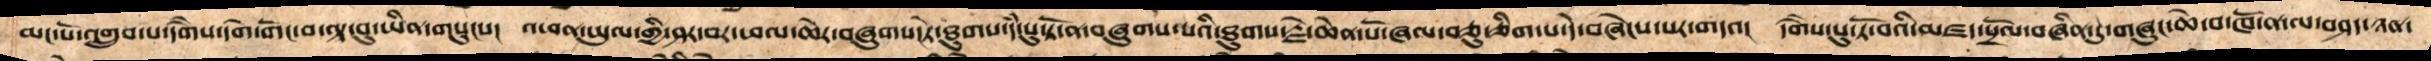མང་པོ་འགྲུབ་པ་དགཻས་དགེ་གོང་པ་ལྟ་བུ་ཡིན་གསུངས།  འཕན་ཡུལ་གྱི་ཤར་བར་ཕལ་ཆེར་བཞུགས་ཏེ་ཐུགས་དཾ་པུ་ཏོ་ན་བཞུགས་པའི་ཐུགས་རྗེ་ཆེན་པོ་ཞལ་བཅུ་ཅིག་པ་དེ་བཞེངས་པར་གདའ།  དགཻས་པུ་ཏོ་བའི་མཛད་སྲོལ་བཞིན་དུ་གཞུང་ཆེ་བ་ཁོ་ན་ལ་བཤད་ཉན་
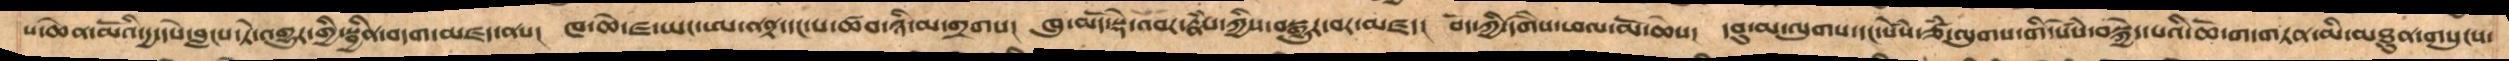པ་ཆེན་མོའི་དྱ་དཔེ་བླངས་ཏེ་འགྱུར་གྱི་སྦྱིན་བདག་མཛད་ནས།  ཁ་ཆེ་ཛ་ཡ་ཨ་ནནྟ་དང་པ་ཚབ་ཉི་མ་གྲགས།  ཁུ་མདོ་སྡེ་འབར་རྣཾས་ཀྱིས་བསྒྱུར་བར་མཛད།  བོད་ཀྱི་དགཻས་ཕལ་མོ་ཆེས།  དབུ་མ་ལུགས་དང་སེཾས་ཙཾ་ལུགས་གི་སེཾས་བསྐྱེད་པའི་ཆོ་ག་དག་གཏན་མི་མཐུན་གསུངས་
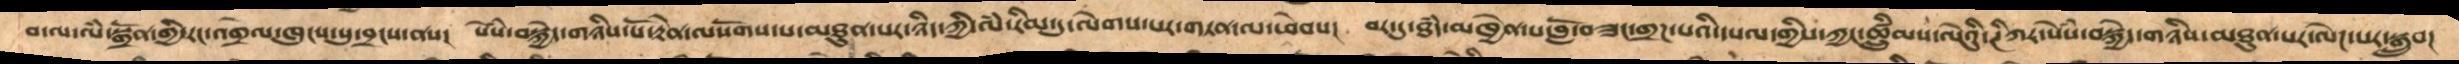བ་ལ་ལཾ་སྒྲོན་གྱི་རང་འགྲེལ་ཁུངས་སུ་བྲངས་ནས།  སེསཾ་བསྐྱེད་གཉིས་པོ་རྟེན་ལསོགས་པ་མཐུན་པར་ཉིད་ཀྱི་ལཾ་རིམ་དུ་ལེགས་པར་གཏན་ལ་ཕེབས།  བར་དུ་ཐཾད་མཁྱེན་པ་བློ་བཟང་གྲཌ་པའི་དཔལ་གྱིས་ཀྱང་ཚྲིུམས་ལེའིུ་ཊིཀར་སེསཾ་བསྐྱེད་གཉིས་མཐུན་པར་ལེཌ་པར་སྒྲུབ།
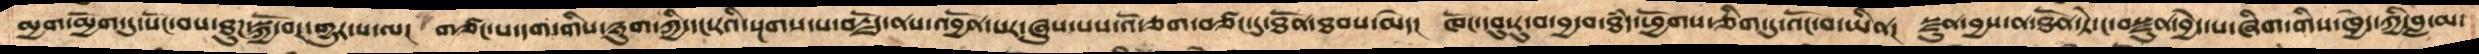མྱག་མྱོག་དུ་སོང་བས་ཐུཌ་སྐྱོ་བར་གྱུར་པ་ལ།  གཙང་པ་དག་གིས་ཉུག་ཀྱི་དང་རའི་སྔགས་པ་བརྗོད་ནས་འབྱོན་པར་ཞུས་པས་འོ་ཅག་བཙང་དུ་ཐོན་ཐབས་མེད།  ཁོང་དབུ་རུ་བ་བྱ་བ་ཐཾད་ཕྱོགས་ཅིག་ཏུ་འོང་བཡིན།  སྫུན་བྱས་ན་ཐོན་ཏེ་ང་བསྫུན་བྱེད་པ་ཞིག་གིས་ཁྱེད་ཀྱི་བླ་མ་
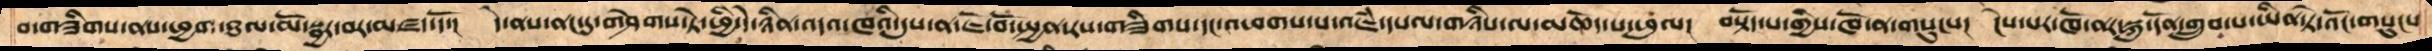བ་གཟིགས་ནས་ཕྱག་ཐལ་མོ་སྦྱར་བར་མཛད་དོ། དེ་ནས་ནང་དུ་གཤེགས་ཏེ་ཕྱི་དེ་ཉིན་འདའ་ཁའི་དུས་ན་ཇོ་བོ་སྤྱན་རས་གཟིགས་དང་འཕགས་པ་འཇཾ་དཔལ་གཉིས་ལ་མཆོད་པ་ཕུལ།  བསྟོད་པ་གྱིས་ཁོ་ན་གསུངས།  ངེས་པ་ཁོ་ནར་སྐུ་དོན་གྲུབ་པ་ཡིན་ཏེ་འོང་གསུངས
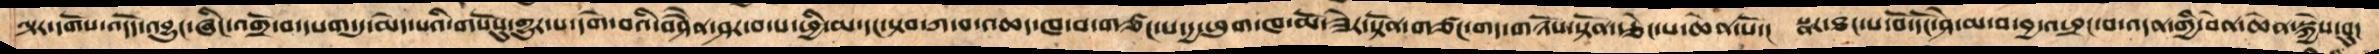ལྟར་དགོས་འདོད་འབྱུང་ཞིང་འགྲོ་བ་དཔག་དུ་མེད་པའི་གསོསུ་གྱུར་པ་དགེ་བའི་བཤཻན་ཤར་བ་པ་ཕྱི་མ་དང་སྟབ་ཀ་བ་འཆད་ཁ་བ་གཙང་པ་དྱ་ཕུག་ཁ་མོ་ཟེར་སྟོན་གཙང་གད་གཉོས་སྟོན་རྩེང་པ་ཆེན་པོ། སྣར་ཐང་པ་བོ་དོང་ཤེ་མ་བ་བྱ་འཕྲང་བ་འདན་གྱི་བེན་ཆེན་སྐྱེས་བུ།
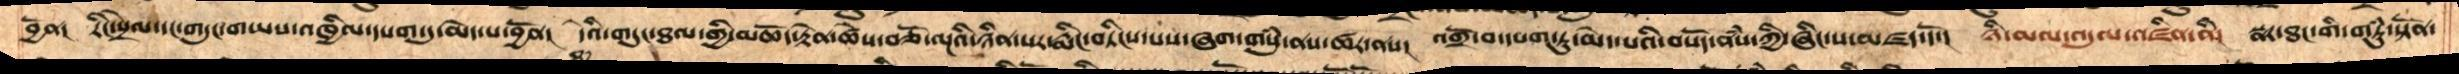བྱོན། རིང་སྲེལ་དང་གདུང་གཡས་འཁྱིལ་དཔག་དུ་མེད་པ་བྱོན། དེའི་གདུང་ཐལ་གྱི་མཆོད་རྟེན་ཚེས་བཅོ་ལྔའི་ཉིན་པར་རྨིང་བཏིངས་པས་ཞག་གསུཾ་ནས་ཚར་ནས།  འགྲོ་བ་དཔག་ཏུ་མེད་པའི་བསོད་ནཾས་ཀྱི་ཞིང་ས་མཛད་དོ།  ཉི་མལ་འདུལ་འཛིན་ནི། སྣར་ཐང་གི་གཏུཾ་སྟོན་
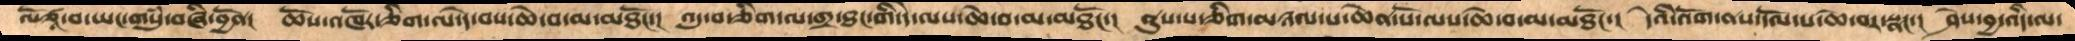ལོཙཱ་བ་ཡང་གསུཾ་བཞི་བྱོན། ཆོས་འཁོར་ཅིག་ལ་དེ་བས་ཆེ་བ་མ་མཐོང་། འདུ་བ་ཅིག་ལ་གྲ་ཐང་གི་དེ་ལས་ཆེ་བ་མ་མཐོང་། ནུས་པ་ཅིག་མཉལ་པ་ཆེན་པོ་ལས་ཆེ་བ་མ་མཐོང་། དེའི་འོག་ན་དོལ་པ་ཆེ་བར་སྣང་། ཤེས་བྱ་འདི་ལ་
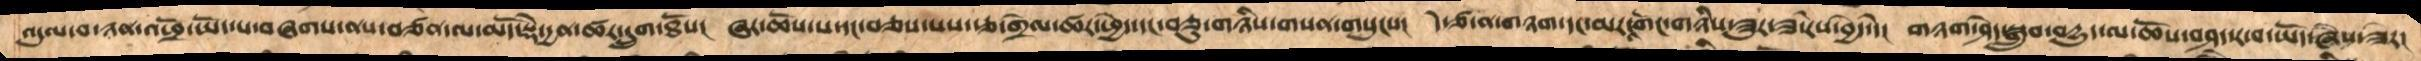འདུལ་བ་ཉན་འཕྲོ་ཡོད་པ་བཞགས་ནས་བཙན་ལ་མདོ་སྡེ་དྱན་ཚར་དྲུག་ཐོས། ཞར་ཆོས་པ་དང་བཅས་པས་རྩ་འགྲེལ་ཚར་ཕྱེད་དང་བཅུ་གཉིས་གསན་གསུངས། དེ་ཙ་ན་གཉག་དང་མར་འགོང་གཉིས་ཟུར་ཟ་རེས་བྱེད་དེ། གཉག་ཤེད་སྒྲུབ་བདྱུད་ལ་ཆོས་བཤད་ར་བ་ཡོད་ཞེས་ཟེར།
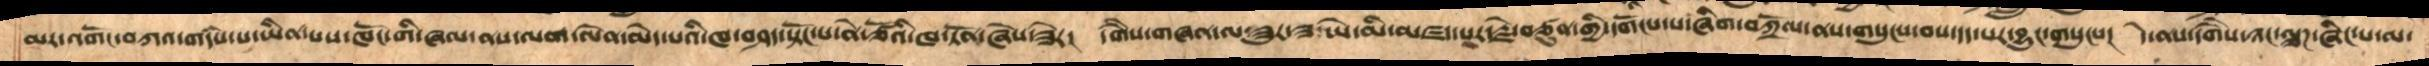མར་འགོང་བཀའ་གདཾས་པ་ཡིན་པས་ཁོང་གི་ཞལ་ནས་ལག་ལེན་མེད་པའི་ཁ་བཤད་སྟོང་པ་ནེ་ཙོའི་ཁ་ཏོན་ཞེས་ཟེར། དགཻས་གཞན་ལ་ཟུར་ཟ་ཡེ་མི་མཛད་པར་རྗེ་བཙུན་གྱི་དགོངས་པ་ཞིག་བཀྲོལ་ནས་གསུངས་བས་དད་པར་བྱུང་གསུངས།  དེ་ནས་དགཻས་ཉང་ལྕཌ་ཞིང་པ་ལ་
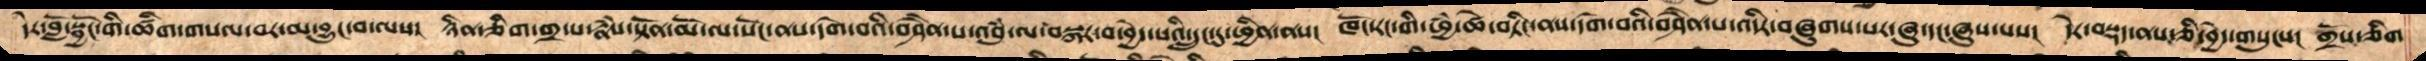དེར་བློ་སྦྱོང་གི་ཚིག་གསལ་བར་མ་བྱུང་བ་ལས།  ཉིན་ཅིག་གྲ་པ་རྣཾས་སྟོན་མོ་ལ་སོང་ནས་དགེ་བའི་བཤཻན་པ་འབུཾ་ལ་བསྐར་བ་བྱེད་པའི་དྲུང་དུ་ཕྱིན་ནས།  ཁོང་རང་གི་ཕྱཾ་ཚེ་བཏིང་ནས་དགེ་བའི་བཤཻན་པ་འདིར་བཞུགས་སར་ཞུ་དང་ཞུས་པས།  དེར་བསྡད་ནས་ཅི་བྱེད་གསུངས།  གྲོས་ཅིག
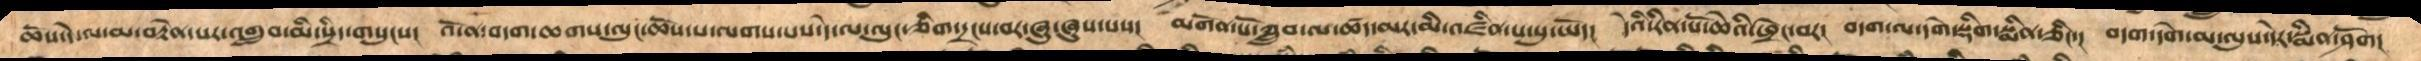ཆོས་དེ་ལ་མ་བརྟེན་པར་འགྲུབ་མི་སྲིད་གསུངས། འོ་ན་བདག་ཆགས་ལུང་ཆོས་པ་ལགས་པས་དེ་ལ་ལུང་ཅིག་དྲངས་བར་ཞུ་ཞུས་པས།  མགོན་པོ་ཀླྲུབ་ལ་ཚད་མར་མི་འཛིན་པ་སུ་ཡོད།  དེའི་རིན་པོ་ཆེའི་ཕྲེང་བར།  བདག་ལ་དགེ་སྡིག་སྨིན་ཅིང་།  བདག་དགེ་མ་ལུས་དེར་སྨིན་ཤོག།
